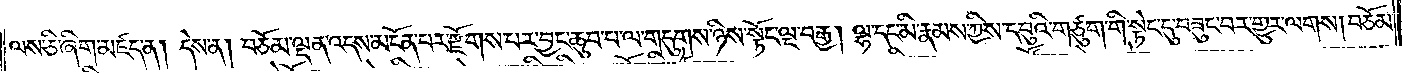ལས་ཅི་ཞིག་མཛད་ན། དེས་ན། བཅོམ་ལྡན་འདས་མངོན་པར་རྫོགས་པར་བྱང་ཆུབ་པ་ལ་གདུགས་ཉིས་སྟོང་ལྔ་བརྒྱ། ལྷ་དང་མི་རྣམས་ཀྱིས་དབུའི་གཙུག་གི་སྟེང་དུ་བཟུང་བར་གྱུར་ལགས། བཅོམ་
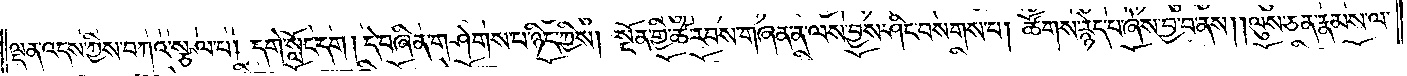ལྡན་འདས་ཀྱིས་བཀའ་སྩལ་པ། དགེ་སློང་དག །དེ་བཞིན་གཤེགས་པ་ཉིད་ཀྱིས། སྔོན་གྱི་ཚེ་རབས་གཞན་ན་ལས་བྱས་ཤིང་བསགས་པ། ཚོགས་རྙེད་པ་ཞེས་བྱ་བ་ནས། །ལུས་ཅན་རྣམས་ལ་
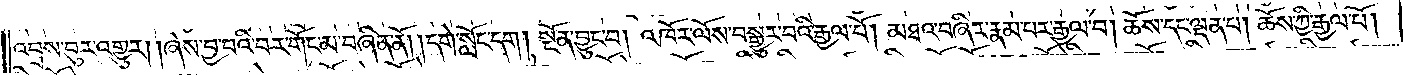འབྲས་བུར་འགྱུར། །ཞེས་བྱ་བའི་བར་གོང་མ་བཞིན་ནོ། །དགེ་སློང་དག །སྔོན་བྱུང་བ། འཁོར་ལོས་བསྒྱུར་བའི་རྒྱལ་པོ། མཐའ་བཞིར་རྣམ་པར་རྒྱལ་བ། ཆོས་དང་ལྡན་པ། ཆོས་ཀྱི་རྒྱལ་པོ།
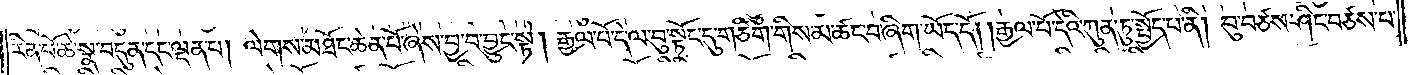རིན་པོ་ཆེ་སྣ་བདུན་དང་ལྡན་པ། ལེགས་མཐོང་ཆེན་པོ་ཞེས་བྱ་བ་བྱུང་སྟེ། རྒྱལ་པོ་དེ་ལ་བུ་སྟོང་དུ་གཅིག་གིས་མ་ཚང་བ་ཞིག་ཡོད་དོ། །རྒྱལ་པོ་དེའི་ཀུན་ཏུ་སྤྱོད་པ་ནི། བུ་བཙས་ཤིང་བཙས་པ་
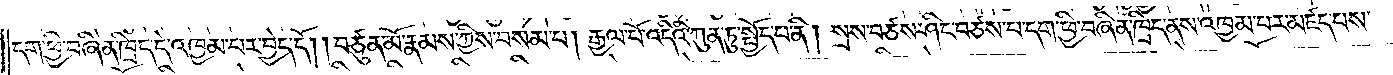དག་ཕྱི་བཞིན་ཁྲིད་དེ་འཁྱམ་པར་བྱེད་དོ། །བཙུན་མོ་རྣམས་ཀྱིས་བསམ་པ། རྒྱལ་པོ་འདིའི་ཀུན་ཏུ་སྤྱོད་པ་ནི། སྲས་བཙས་ཤིང་བཙས་པ་དག་ཕྱི་བཞིན་ཁྲིད་ནས་འཁྱམ་པར་མཛད་པས་
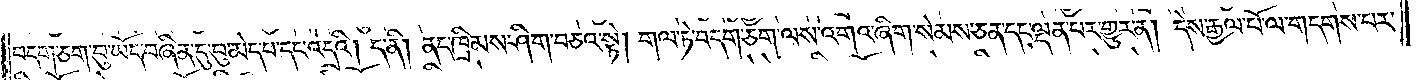བདག་ཅག་བུ་ཡོད་བཞིན་དུ་བུ་མེད་པ་དང་འདྲའི། ད་ནི། ནད་ཁྲིམས་ཤིག་བཅའ་སྟེ། གལ་ཏེ་བདག་ཅག་ལས་འགའ་ཞིག་སེམས་ཅན་དང་ལྡན་པར་གྱུར་ན། དེས་རྒྱལ་པོ་ལ་གདགས་པར་
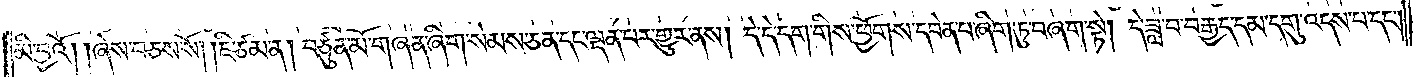མི་བྱའོ། །ཞེས་བཅས་སོ། །ཇི་ཙམ་ན། བཙུན་མོ་གཞན་ཞིག་སེམས་ཅན་དང་ལྡན་པར་གྱུར་ནས། དེ་དེ་དག་གིས་ཕྱོགས་དབེན་པ་ཞིག་ཏུ་བཞག་སྟེ། དེ་ཟླ་བ་བརྒྱད་དམ་དགུ་འདས་པ་དང༌།
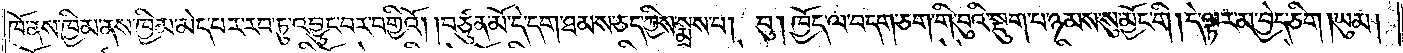ཁོ་ནས་ཁྱིམ་ནས་ཁྱིམ་མེད་པར་རབ་ཏུ་འབྱུང་བར་བགྱིའོ། །བཙུན་མོ་དེ་དག་ཐམས་ཅད་ཀྱིས་སྨྲས་པ། བུ། ཁྱོད་ལ་བདག་ཅག་གི་བུའི་སྡུག་པ་ཉམས་སུ་མྱོང་གི །དེ་ལྟར་མ་བྱེད་ཅིག །ཡུམ།
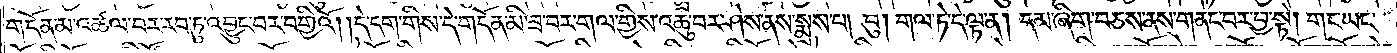གདོན་མ་འཚལ་བར་རབ་ཏུ་འབྱུང་བར་བགྱིའོ། །དེ་དག་གིས་དེ་གདོན་མི་ཟ་བར་གལ་གྱིས་འཆུ་བར་ཤེས་ནས་སྨྲས་པ། བུ། གལ་ཏེ་དེ་ལྟ་ན། དམ་ཞིག་བཅས་ནས་གནང་བར་བྱ་སྟེ། གང་ཡང་
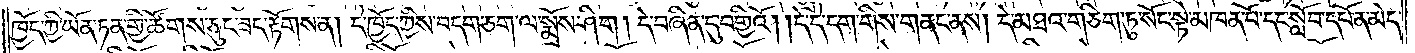ཁྱོད་ཀྱི་ཡོན་ཏན་གྱི་ཚོགས་ཅུང་ཟད་རྟོགས་ན། དེ་ཁྱོད་ཀྱིས་བདག་ཅག་ལ་སྨྲོས་ཤིག །དེ་བཞིན་དུ་བགྱིའོ། །དེ་དེ་དག་གིས་གནང་ནས། དེ་མཐའ་གཅིག་ཏུ་སོང་སྟེ་མཁན་པོ་དང་སློབ་དཔོན་མེད་
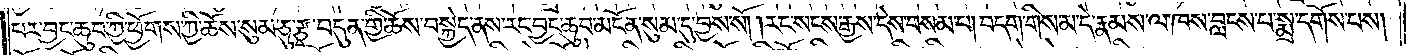པར་བྱང་ཆུབ་ཀྱི་ཕྱོགས་ཀྱི་ཆོས་སུམ་ཅུ་རྩྭ་བདུན་གྱི་ཆོས་བསྐྱེད་ནས་རང་བྱང་ཆུབ་མངོན་སུམ་དུ་བྱས་སོ། །རང་སངས་རྒྱས་དེས་བསམ་པ། བདག་གིས་མ་དེ་རྣམས་ལ་ཁས་བླངས་པ་སྨྲ་དགོས་པས།
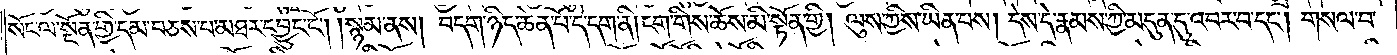སོང་ལ་སྔོན་གྱི་དམ་བཅས་པ་མཐར་དབྱུང་ངོ༌། །སྙམ་ནས། བདག་ཉིད་ཆེན་པོ་དེ་དག་ནི། ངག་གིས་ཆོས་མི་སྟོན་གྱི། ལུས་ཀྱིས་ཡིན་པས། དེས་དེ་རྣམས་ཀྱི་མདུན་དུ་འབར་བ་དང༌། གསལ་བ་
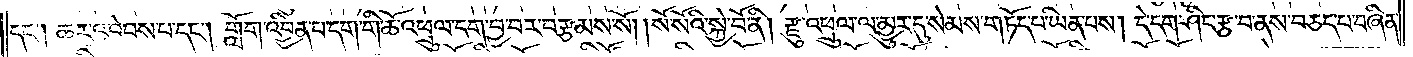དང༌། ཆར་འབེབས་པ་དང༌། གློག་འབྱིན་པ་དག་གི་ཆོ་འཕྲུལ་དག་བྱ་བར་བརྩམས་སོ། །སོ་སོའི་སྐྱེ་བོ་ནི། རྫུ་འཕྲུལ་ལ་མྱུར་དུ་སེམས་གཏོད་པ་ཡིན་པས། དེ་དག་ཤིང་རྩ་བ་ནས་བཅད་པ་བཞིན་
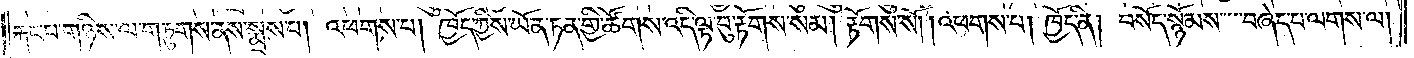རྐང་པ་གཉིས་ལ་གཏུགས་ནས་སྨྲས་པ། འཕགས་པ། ཁྱོད་ཀྱིས་ཡོན་ཏན་གྱི་ཚོགས་འདི་ལྟ་བུ་རྟོགས་སམ། རྟོགས་སོ། །འཕགས་པ། ཁྱོད་ནི། བསོད་སྙོམས་བཞེད་པ་ལགས་ལ།
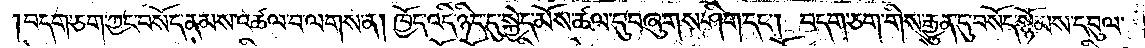བདག་ཅག་ཀྱང་བསོད་ནམས་འཚལ་བ་ལགས་ན། ཁྱོད་འདི་ཉིད་དུ་སྐྱེད་མོས་ཚལ་དུ་བཞུགས་ཤིག་དང༌། བདག་ཅག་གིས་རྒྱུན་དུ་བསོད་སྙོམས་དབུལ་
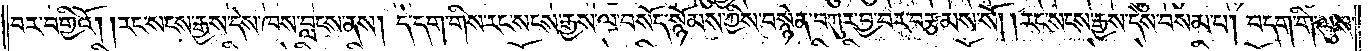བར་བགྱིའོ། །རང་སངས་རྒྱས་དེས་ཁས་བླངས་ནས། དེ་དག་གིས་རང་སངས་རྒྱས་ལ་བསོད་སྙོམས་ཀྱིས་བསྙེན་བཀུར་བྱ་བར་བརྩམས་སོ། །རང་སངས་རྒྱས་དེས་བསམ་པ། བདག་གི་ལུས་
